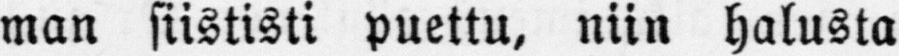man siististi puettu, niin halusta
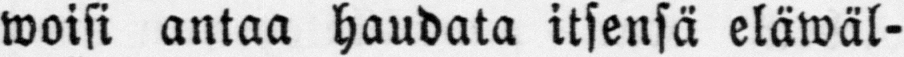woisi antaa haudata itsensä eläwäl-
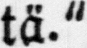tä."
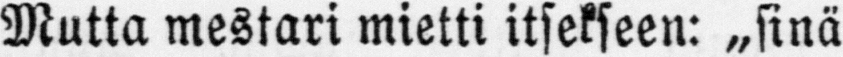Mutta mestari mietti itsekseen: „sinä
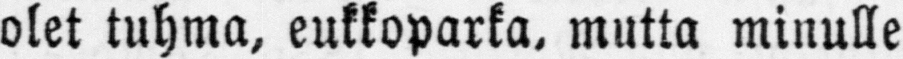olet tuhma, eukkoparka, mutta minulle
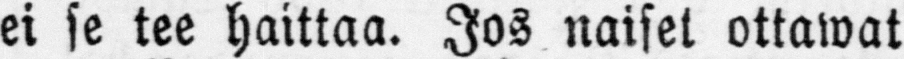ei se tee haittaa. Jos naiset ottawat
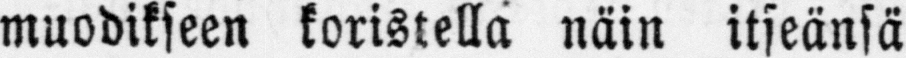muodikseen koristella näin itseänsä
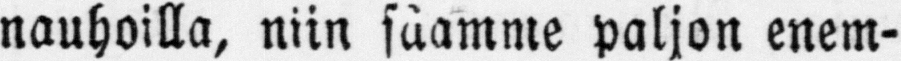nauhoilla, niin saamme paljon enem-
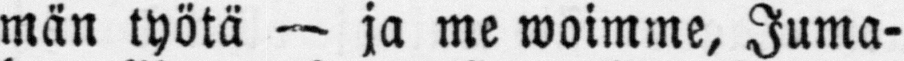män työtä — ja me woimme, Juma-
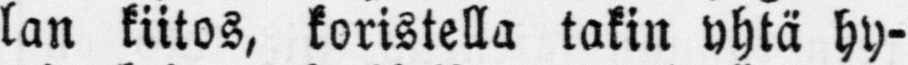lan kiitos, koristella takin yhtä hy-
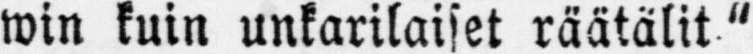win kuin unkarilaiset räätälit."
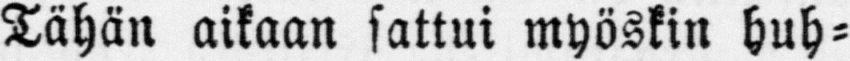Tähän aikaan sattui myöskin huh-
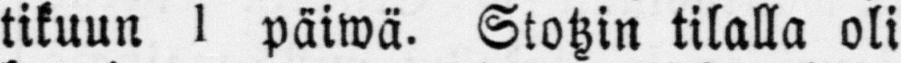tikuun 1 päiwä. Stotzin tilalla oli
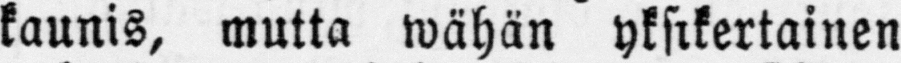kaunis, mutta wähän yksikertainen
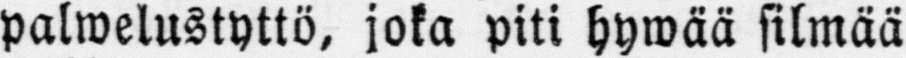palwelustyttö, joka piti hywää silmää
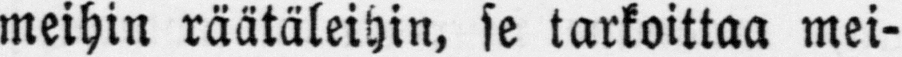meihin räätäleihin, se tarkoittaa mei-
